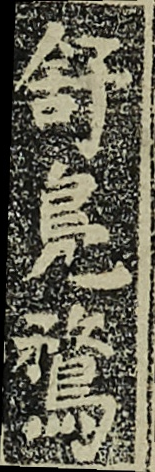舒鳧鶩
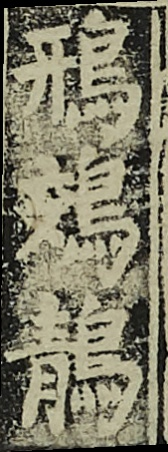鳽鵁鶄
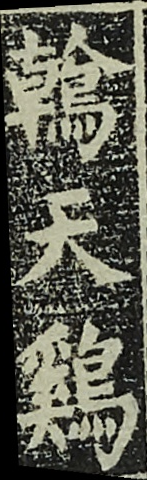鶾天鷄
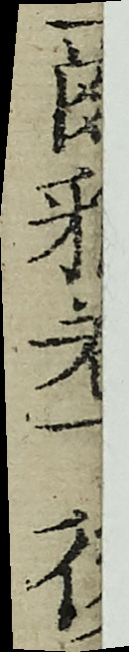爾雅卷一後
